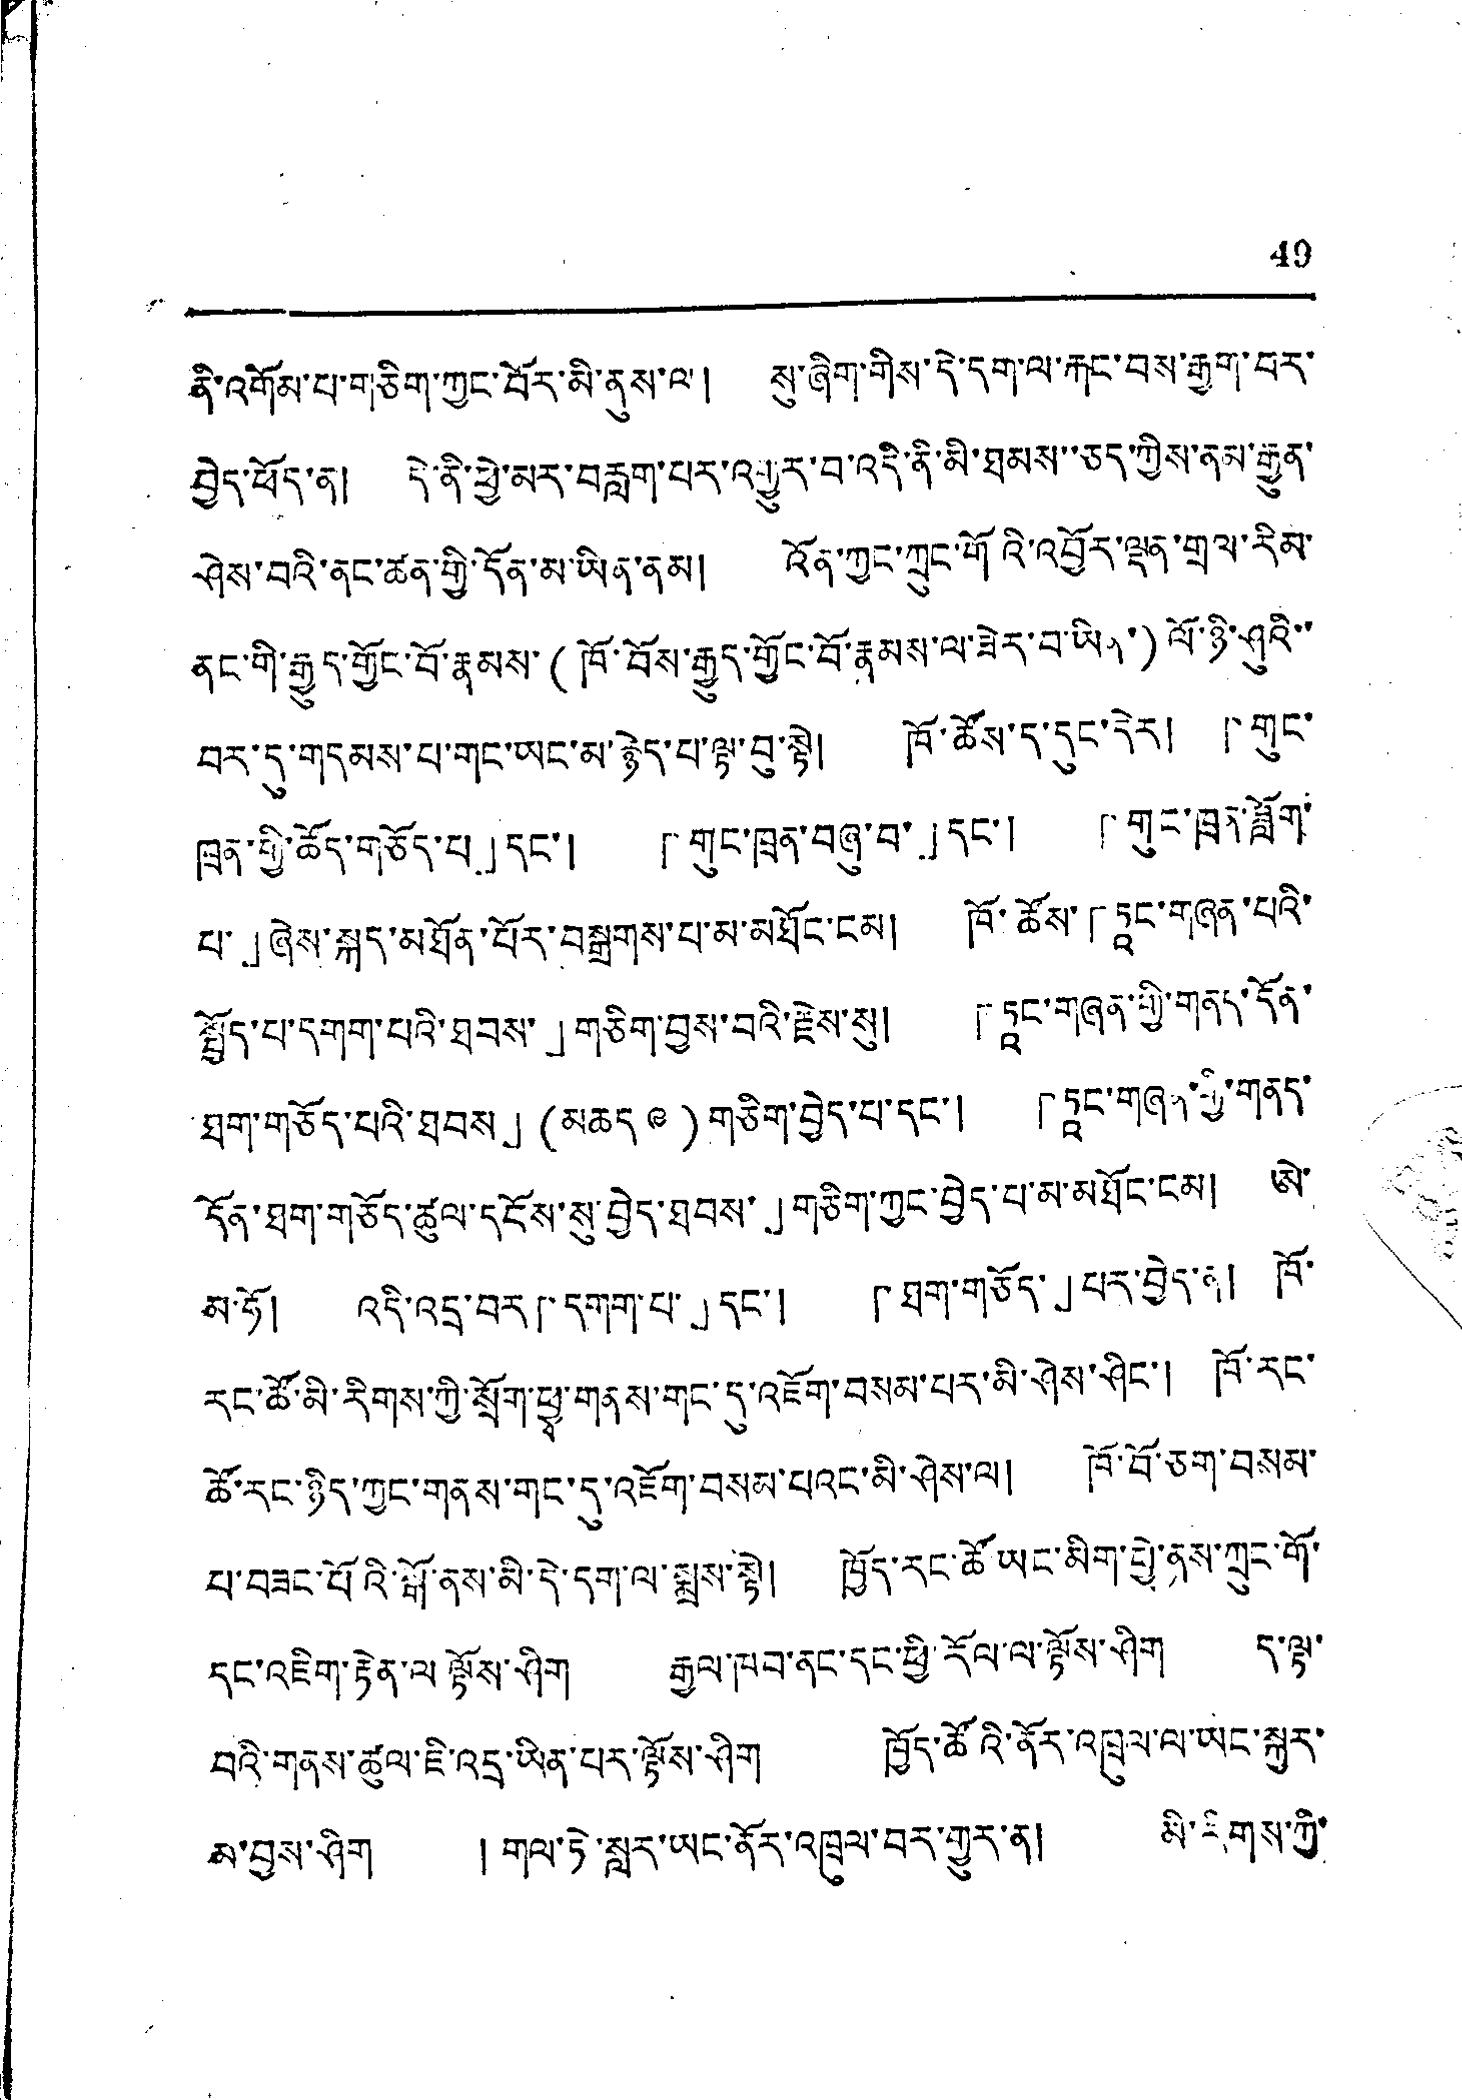49
ནི་འགོམ་པ་གཅིག་ཀྱང་བོར་མི་ནུས་ལ། སུ་ཞིག་གིས་དེ་དག་ལ་རྐང་བས་རྒྱུག་པར་
བྱེད་ཕོད་ན། དེ་ནི་ཕྱེ་མར་བརླག་པར་འགྱུར་བ་འདི་ནི་མི་ཐམས་་ཅད་ཀྱིས་ནམ་རྒྱུན་
ཤེས་བའི་ནང་ཚན་གྱི་དོན་མ་ཡིན་ནམ། འོན་ཀྱང་ཀྲུང་གོའི་འབྱོར་ལྡན་གྲལ་རིམ་
ནང་གི་རྒྱུད་གྱོང་བོ་རྣམས་(ཁོ་བོས་རྒྱུད་གྱོང་བོ་རྣམས་ལ་ཟེར་བ་ཡིན་)ལོ་ཉི་ཤུའི་་
བར་དུ་གདམས་པ་གང་ཡང་མ་རྙེད་པ་ལྟ་བུ་སྟེ། ཁོ་ཚོས་ད་དུང་དེར། 「གུང་
ཁྲན་གྱི་ཚོད་གཅོད་པ」དང་། 「གུང་ཁྲན་བཞུ་བ་」དང་། 「གུང་ཁྲན་ཟློག་
པ་」ཞེས་སྐད་མཐོན་པོར་བསྒྲགས་པ་མ་མཐོང་ངམ། ཁོ་ཚོས་「ཏཱང་གཞན་པའི་
སྤྱོད་པ་དགག་པའི་ཐབས་」གཅིག་བྱས་བའི་རྗེས་སུ། 「ཏཱང་གཞན་གྱི་གནད་དོན་
ཐག་གཅོད་པའི་ཐབས་」(མཆད ༩)གཅིག་བྱེད་པ་དང་། 「ཏཱང་གཞན་གྱི་གནད་
དོན་ཐག་གཅོད་ཚུལ་དངོས་སུ་བྱེད་ཐབས་」གཅིག་ཀྱང་བྱེད་པ་མ་མཐོང་དམ། ཨེ་
མ་ཧོ། འདི་འདྲ་བར「དགག་པ་」དང་། 「ཐག་གཅོད་」པར་བྱེད་ན། ཁོ་
རང་ཚོ་མི་རིགས་ཀྱི་སྲོག་ཕྱྭ་གནས་གང་དུ་འཇོག་བསམ་པར་མི་ཤེས་ཤིང་། ཁོ་རང་
ཚོ་རང་ཉིད་ཀྱང་གནས་གང་དུ་འཇོག་བསམ་པའང་མི་ཤེས་ལ། ཁོ་བོ་ཅག་བསམ་
པ་བཟང་པོའི་སྒོ་ནས་མི་དེ་དག་ལ་སྨྲས་སྟེ། ཁྱོད་རང་ཚོ་ཡང་མིག་ཕྱེ་ནས་ཀྲུང་གོ་
དང་འཇིག་རྟེན་ལ་ལྟོས་ཤིག རྒྱལ་ཁབ་ནང་དང་ཕྱི་རོལ་ལ་ལྟོས་ཤིག ད་ལྟ་
བའི་གནས་ཚུལ་ཇི་འདྲ་ཡིན་པར་ལྟོས་ཤིག ཁྱོད་ཚོའི་ནོར་འཁྲུལ་ལ་ཡང་སྐར་
མ་བྱས་ཤིག ། གལ་ཏེ་སླར་ཡང་ནོར་འཁྲུལ་བར་གྱུར་ན། མི་རིགས་ཀྱི་
